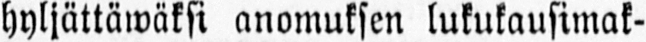hyljättäwäksi anomuksen lukukausimak-
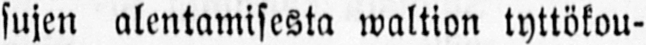sujen alentamisesta waltion tyttökou-
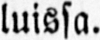luissa.
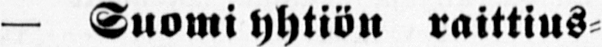— Suomi yhtiön raittius-
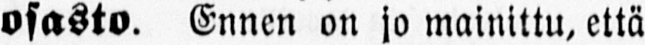osasto. Ennen on jo mainittu, että
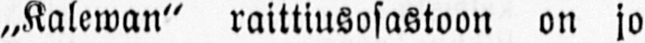„Kalewan" raittiusosastoon on jo
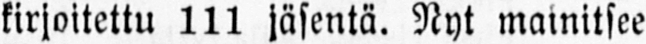kirjoitettu 111 jäsentä. Nyt mainitsee
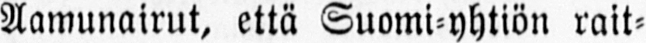Aamunairut, että Suomi-yhtiön rait-
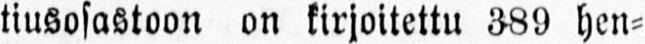tiusosastoon on kirjoitettu 389 hen-
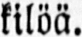kilöä.
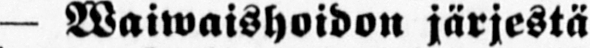— Waiwaishoidon järjestä-
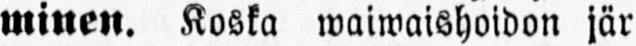minen. Koska waiwaishoidon jär-
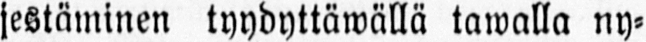jestäminen tyydyttäwällä tawalla ny-
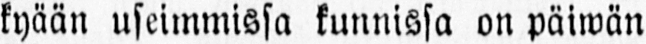kyään useimmissa kunnissa on päiwän
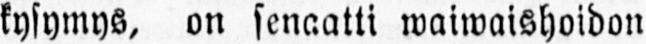kysymys, on senaatti waiwaiöhoidon
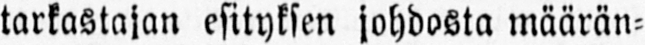tarkastajan esityksen johdosta määrän-
